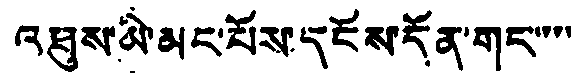འཐུས་མི་མང་པོས་དངོས་དོན་གང་་་་
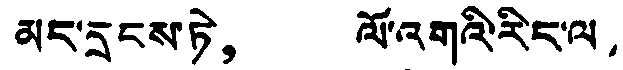མང་དྲངས་ཏེ， ལོ་འགའི་རིང་ལ，
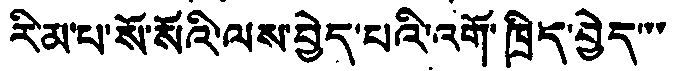རིམ་པ་སོ་སོའི་ལས་བྱེད་པའི་འགོ་ཁྲིད་བྱེད་་་
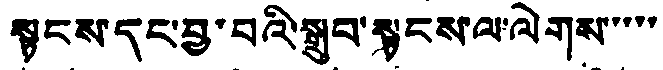སྟངས་དང་བྱ་བའི་སྒྲུབ་སྟངས་ལ་ལེགས་་་་་
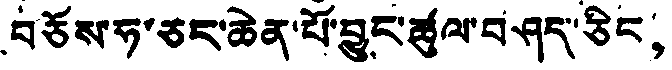བཅོས་ཧ་ཅང་ཆེན་པོ་བྱུང་ཚུལ་བཤད་ཅིང，
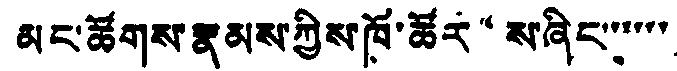མང་ཚོགས་རྣམས་ཀྱིས་ཁོ་ཚོར“ས་ཞིང་་་་་་
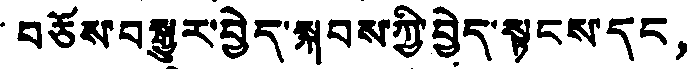བཅོས་བསྒྱུར་བྱེད་སྐབས་ཀྱི་བྱེད་སྟངས་དང，
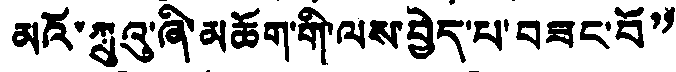མའོ་ཀྲུའུ་ཞི་མཆོག་གི་ལས་བྱེད་པ་བཟང་བོ”
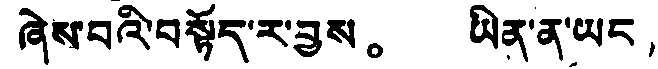ཞེས་པའི་བསྟོད་ར་བྱས。 ཡིན་ན་ཡང，
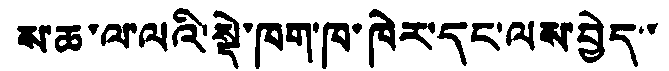ས་ཆ་ལ་ལའི་སྡེ་ཁག་ཁ་ཁེར་དང་ལས་བྱེད་་
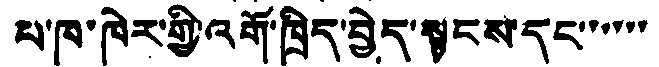པ་ཁ་ཁེར་གྱི་འགོ་ཁྲིད་བྱེད་སྟངས་དང་་་་་་
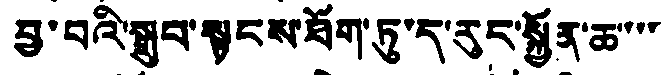བྱ་བའི་སྒྲུབ་སྟངས་ཐོག་ཏུ་ད་རུང་སྐྱོན་ཆ་་་་
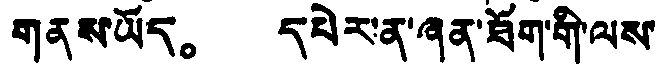གནས་ཡོད。 དཔེར་ན་ཞན་ཐོག་གི་ལས་
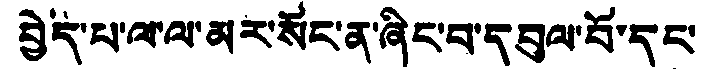བྱེད་པ་ལ་ལ་མར་སོང་ན་ཞིང་བ་དབུལ་བོ་དང་
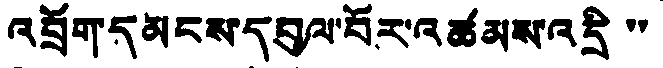འབྲོག་དམངས་དབུལ་བོར་འཚམས་འདྲི་་
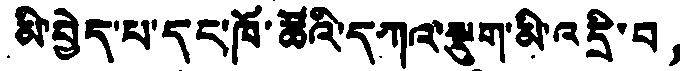མི་བྱེད་པ་དང་ཁོ་ཚོའི་དཀའ་སྡུག་མི་འདྲི་བ，
